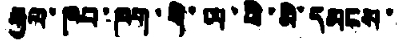རྒྱལ་ཁབ་ཁག་གི་ཡ་ཕི་མི་དམངས་
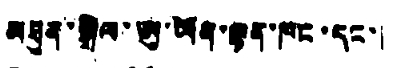མཐུན་སྒྲིལ་ཨུ་ཡོན་ལྟན་ཁང་དང་།
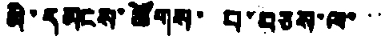མི་དམངས་ཚོགས་ པ་བཅས་ལ་་་
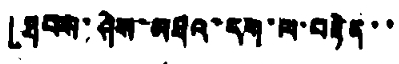「ཐབས་ཤེས་མཐའ་དག་ལ་བརྟེན་་
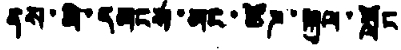ནས་མི་དམངས་མང་ཚོཌ་སྐྱལ་སློང
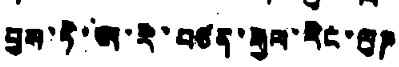བྱས་ཏེ་ཨ་རི་བཙན་རྒྱལ་རིང་ལུཌ་
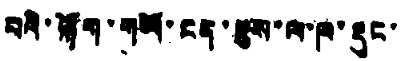པའི་ལྐོག་གཡོ་ངན་ཇུས་ལ་ཁ་རྡུང་
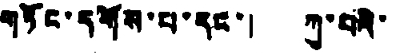གཏོང་དགོས་པ་དང་། ཀུ་པའི་
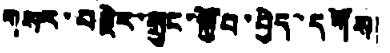གསར་བརྗེར་སྲུང་སྐྱོབ་བྱེད་དགོས།
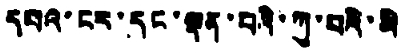དཔའ་ངར་དང་ལྡན་པའི་ཀུ་པའི་མི་
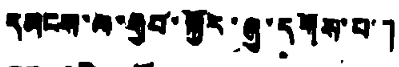དམངས་ལ་རྒྱབ་སྐྱོར་ཞུ་དགོས་པ་」
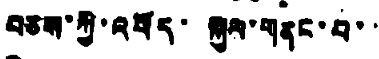བཅས་ཀྱི་འབོད་སྐྱལ་གནང་བ་་་
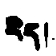རེད།
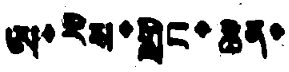ཨ་རིས་གླིང་ཆེན་
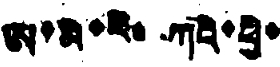ཨ་མེ་རི་ཀའི་ཕྱི་
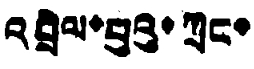འབྲེལ་པུའུ་ཀྲང་
